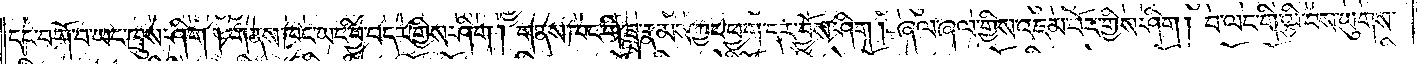དང་བགོ་བ་ཡང་ཁྲུས་ཤིག །གནས་ཁང་ཡང་བྱི་བདར་གྱིས་ཤིག། གནས་ཁང་གི་ཟླ་རྣམས་ཀྱང་ཕྱག་དར་བྱོས་ཤིག། ཞལ་ཞལ་གྱིས་འཇམ་པོར་གྱིས་ཤིག། བ་ལང་གི་ལྕི་བས་ཡུགས་
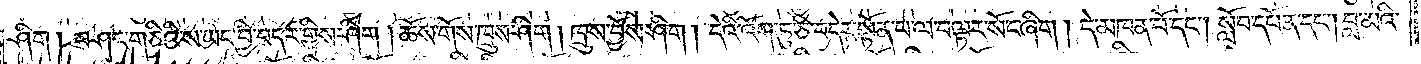ཤིག། བཤང་གཅིའི་ས་ཡང་བྱི་བདར་གྱིས་ཤིག། ཆོས་གོས་ཁྲུས་ཤིག། ཁྲུས་བྱོས་ཤིག། དེའི་འོག་ཏུ་ཅི་བདེར་སྟོན་པ་ལ་བལྟར་སོང་ཞིག། དེ་མཁན་པོ་དང༌། སློབ་དཔོན་དང༌། བླ་མའི་
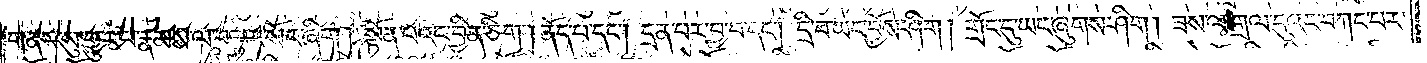གནས་སུ་གྱུར་པ་རྣམས་ལ་བལྟར་སོང་ཞིག། སྟོན་པའང་བྱིན་ཅིག། ནོད་པ་དང༌། དྲན་པར་བྱ་བ་དང༌། དྲི་བ་ཡང་བྱོས་ཤིག། གྲོང་དུ་ཡང་ཞུགས་ཤིག། ཟས་ལ་གྲལ་དུའང་བཀང་བར་
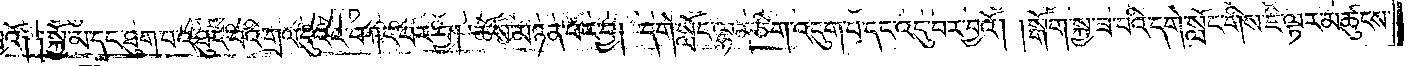འོ༑ ༑སྐྱོ་མ་དང་ཐུག་པ་འཐུང་བའི་གྲལ་དུའང་བཀང་བར་བྱ། ཆོས་མཉན་པར་བྱ། དགེ་སློང་ལྷན་ཅིག་འདུག་པ་དང་འདུ་བར་བྱའོ། །སྒོག་སྐྱ་ཟ་བའི་དགེ་སློང་གིས་ཇི་ལྟར་མཚུངས་
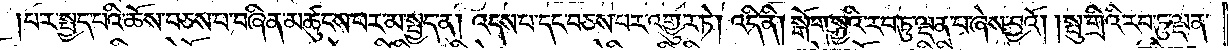པར་སྤྱད་པའི་ཆོས་བཅས་པ་བཞིན་མཚུངས་པར་མ་སྤྱད་ན། འདས་པ་དང་བཅས་པར་འགྱུར་ཏེ། འདི་ནི། སྒོག་སྐྱའི་རབ་ཏུ་ལྡན་པ་ཞེས་བྱའོ། །སྤུ་གྲིའི་རབ་ཏུ་ལྡན་
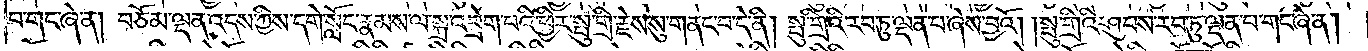པ་གང་ཞེ་ན། བཅོམ་ལྡན་འདས་ཀྱིས་དགེ་སློང་རྣམས་ལ་སྐྲ་འབྲེག་པའི་ཕྱིར་སྤུ་གྲི་རྗེས་སུ་གནང་བ་དེ་ནི། སྤུ་གྲིའི་རབ་ཏུ་ལྡན་པ་ཞེས་བྱའོ། །སྤུ་གྲིའི་ཤུབས་རབ་ཏུ་ལྡན་པ་གང་ཞེ་ན།
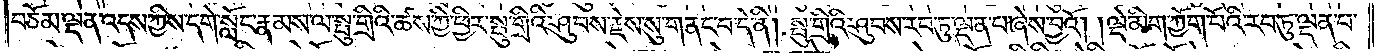བཅོམ་ལྡན་འདས་ཀྱིས་དགེ་སློང་རྣམས་ལ་སྤུ་གྲིའི་ཚས་ཀྱི་ཕྱིར་སྤུ་གྲིའི་ཤུབས་རྗེས་སུ་གནང་བ་དེ་ནི། སྤུ་གྲིའི་ཤུབས་རབ་ཏུ་ལྡན་པ་ཞེས་བྱའོ། །ལྡེ་མིག་ཀྱོག་པོའི་རབ་ཏུ་ལྡན་པ་
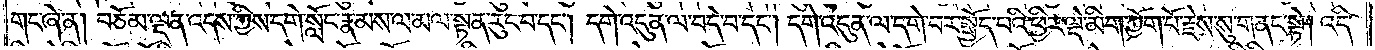གང་ཞེ་ན། བཅོམ་ལྡན་འདས་ཀྱིས་དགེ་སློང་རྣམས་ལ་མལ་སྟན་རུང་བ་དང༌། དགེ་འདུན་ལ་བདེ་བ་དང༌། དགེ་འདུན་ལ་དགེ་བར་སྤྱོད་པའི་ཕྱིར་ལྡེ་མིག་ཀྱོག་པོ་རྗེས་སུ་གནང་སྟེ། འདི་
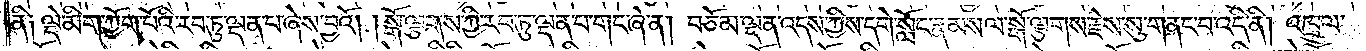ནི༑ ལྡེ་མིག་ཀྱོག་པོའི་རབ་ཏུ་ལྡན་པ་ཞེས་བྱའོ། །སྒོ་ལྕགས་ཀྱི་རབ་ཏུ་ལྡན་པ་གང་ཞེ་ན། བཅོམ་ལྡན་འདས་ཀྱིས་དགེ་སློང་རྣམས་ལ་སྒོ་ལྕགས་རྗེས་སུ་གནང་བ་འདི་ནི། འཁྲུལ་
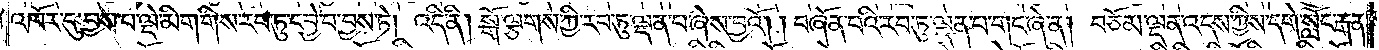འཁོར་དུ་བྱས་པ་ལྡེ་མིག་གིས་རབ་ཏུ་དབྱེ་བ་བྱས་ཏེ། འདི་ནི། སྒོ་ལྕགས་ཀྱི་རབ་ཏུ་ལྡན་པ་ཞེས་བྱའོ། །བཞོན་པའི་རབ་ཏུ་ལྡན་པ་གང་ཞེ་ན། བཅོམ་ལྡན་འདས་ཀྱིས་དགེ་སློང་རྒན་
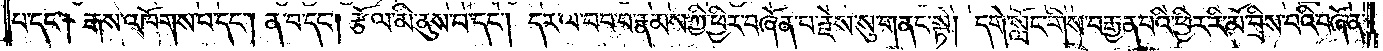པ་དང༌། རྒས་འཁོགས་པ་དང༌། ན་བ་དང༌། རྩོལ་མི་ནུས་པ་དང༌། དར་ལ་བབ་པ་རྣམས་ཀྱི་ཕྱིར་བཞོན་པ་རྗེས་སུ་གནང་སྟེ། དགེ་སློང་གིས་བརྒྱན་པའི་ཕྱིར་རི་མོ་བྲིས་པའི་བཞོན་
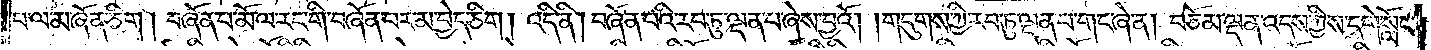པ་ལ་མ་ཞོན་ཅིག། བཞོན་པ་མོ་ལ་རང་གི་བཞོན་པར་མ་བྱེད་ཅིག། འདི་ནི། བཞོན་པའི་རབ་ཏུ་ལྡན་པ་ཞེས་བྱའོ། །གདུགས་ཀྱི་རབ་ཏུ་ལྡན་པ་གང་ཞེ་ན། བཅོམ་ལྡན་འདས་ཀྱིས་དགེ་སློང་
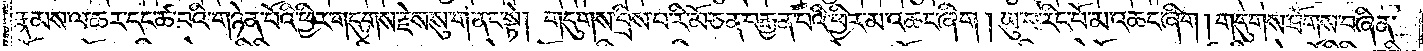རྣམས་ལ་ཆར་དང་ཚ་བའི་གཉེན་པོའི་ཕྱིར་གདུགས་རྗེས་སུ་གནང་སྟེ། གདུགས་བྲིས་པ་རི་མོ་ཅན་བརྒྱན་པའི་ཕྱིར་མ་འཆང་ཞིག། ཡུ་བ་རིང་པོ་མ་འཆང་ཞིག། གདུགས་ཐོགས་བཞིན་
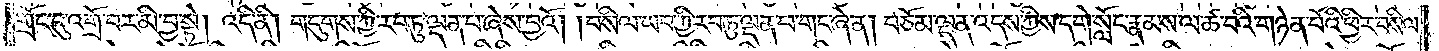གྲོང་དུ་འགྲོ་བར་མི་བྱ་སྟེ། འདི་ནི། གདུགས་ཀྱི་རབ་ཏུ་ལྡན་པ་ཞེས་བྱའོ། །བསིལ་ཡབ་ཀྱི་རབ་ཏུ་ལྡན་པ་གང་ཞེ་ན། བཅོམ་ལྡན་འདས་ཀྱིས་དགེ་སློང་རྣམས་ལ་ཚ་བའི་གཉེན་པོའི་ཕྱིར་བསིལ་
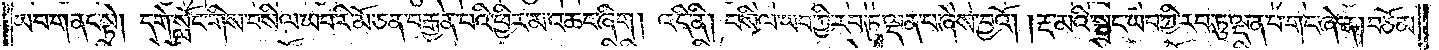ཡབ་གནང་སྟེ། དགེ་སློང་གིས་བསིལ་ཡབ་རི་མོ་ཅན་བརྒྱན་པའི་ཕྱིར་མ་འཆང་ཞིག། འདི་ནི། བསིལ་ཡབ་ཀྱི་རབ་ཏུ་ལྡན་པ་ཞེས་བྱའོ། །རྔ་མའི་སྦྲང་ཡབ་ཀྱི་རབ་ཏུ་ལྡན་པ་གང་ཞེ་ན། བཅོམ་
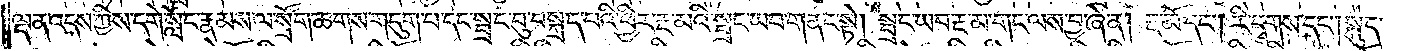ལྡན་འདས་ཀྱིས་དགེ་སློང་རྣམས་ལ་སྲོག་ཆགས་གདུག་པ་དང་སྦྲང་བུ་བསྐྲད་པའི་ཕྱིར་རྔ་མའི་སྦྲང་ཡབ་གནང་སྟེ། སྦྲང་ཡབ་རྔ་མ་གང་ལས་བྱ་ཞེ་ན། རྔ་མོ་དང༌། རི་དྭགས་དང༌། སྐུད་
